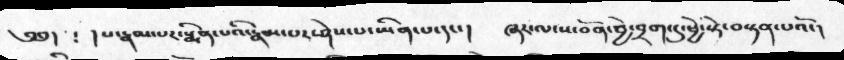༄༅།  ༴ །པ་རྣམ་པར་སྨིན་པའི་རྣམ་པར་ཤེས་པ་ཡིན་པ་དང་།  ཞར་ལ་ས་བོན་བྱེ་བྲག་དུ་ཕྱེ་སྟེ་བསྟན་པའོ་།
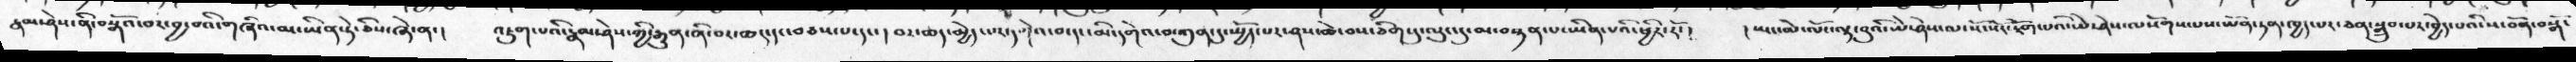རྣམ་ཤེས་ནི་བསྒོའ་བར་བྱ་བའི་གཞིའ་མ་ཡིན་ཏེ་ཅིས་ཞེ་ན་།  འཇུག་པའི་རྣམ་ཤེས་ཀྱི་རྒྱུན་ཞི་བར་ཆད་དང་བཅས་པ་དང་།  བར་ཆད་མྱེད་པར་དགེའ་བ་དང་མི་དགེའ་བ་ཀུན་དུ་སྤྱོད་པར་ཤས་ཆེ་བས་ཅིག་དུ་ལུང་མ་བསྟན་པ་ཡིན་པའི་ཕྱིར་རོ་།   ། ཡང་མེ་ལོང་ལྟ་བུའི་ཡེ་ཤེས་ལ་སོ་སོར་རྟོག་པའི་ཡེ་ཤེས་ལསོགས་པས་ཡོན་ཏན་ཁྱད་པར་ཅན་སྒྲུབ་པར་བྱེད་པའི་ས་བོན་བསྒོ་
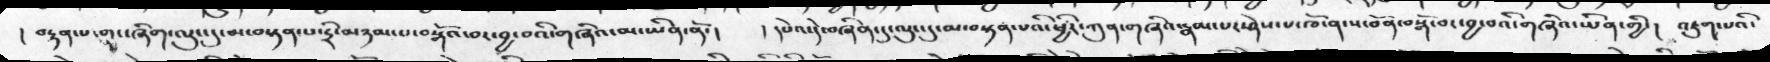། བརྟན་པ་གང་ཞིག་ལུང་དུ་མ་བསྟན་པ་དྲི་མཉམ་པ་བསྒོའ་བར་བྱ་བའི་གཞིའ་མ་ཡིན་ནོ་།   །དཔེའ་དེ་བཞིན་དུ་ལུང་དུ་མ་བསྟན་པའི་ཕྱིར་ཀུན་གཞིའ་རྣམ་པར་ཤེས་པ་ཁོ་ན་ས་བོན་བསྒོ་བར་བྱ་བའི་གཞིའ་ཡིན་གྱི་།  འཇུག་པའི་
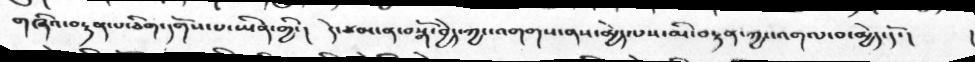གཞིའ་བརྟན་པ་ཅིག་དགོས་པ་ཡིན་གྱི་།  དེ་ཙམ་ན་བསྒོ་བྱེད་ཀྱང་འགགས་ནས་མྱེད་པས་མི་བརྟན་ཀྱང་འགལ་བ་མྱེད་དོ་།
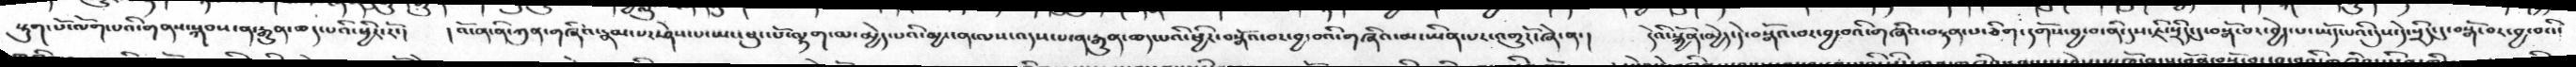སྡུག་པོ་ལསོགས་པའི་གནས་སྐབས་ན་རྒྱུན་ཆད་པའི་ཕྱིར་རོ་།  །འོ་ན་ཀུན་གཞིའ་རྣམ་པར་ཤེས་པ་ཡང་ཕུང་པོ་ལྷག་མ་མྱེད་པའི་མྱ་ངན་ལས་འདས་པ་ན་རྒྱུན་ཆད་པའི་ཕྱིར་བསྒོའ་བར་བྱ་བའི་གཞིའ་མ་ཡིན་པར་འགྱུརོ་ཞེ་ན་།  དེའི་སྐྱོན་མྱེད་དེ་བསྒོའ་བར་བྱ་བའི་གཞིའ་བསྟན་པ་ཅིག་དགོས་བྱ་བ་ནི་དུས་ཇི་སྲིད་དུ་བསྒོ་བར་བྱེད་པ་ཡོད་པའི་དུས་དེ་སྲིད་དུ་བསྒོ་བར་བྱ་བའི་
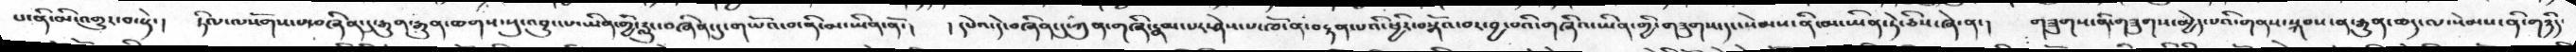པ་ནི་མི་འགྱུར་བ་སྟེ་།  ཏིལ་ལསོགས་པ་བཞིན་དུ་རྒྱུན་རྒྱུན་ཆགས་སུ་འབྱུང་པ་ཡིན་གྱི་རླུང་བཞིན་དུ་གཡོའ་བ་ནི་མ་ཡིན་ནོ་།   །དཔེའ་དེ་བཞིན་དུ་ཀུན་གཞི་རྣམ་པར་ཤེས་པ་ཁོ་ན་བརྟན་པའི་ཕྱིར་བསྒོའ་བར་བྱ་བའི་གཞིའ་ཡིན་གྱི་གཟུགས་དང་སེམས་ནི་མ་ཡིན་ཏེ་ཅིས་ཞེ་ན་།   གཟུགས་ནི་གཟུགས་མྱེད་པའི་གནས་སྐབས་ན་རྒྱུན་ཆད་ལ་སེམས་ནི་གཉིད་
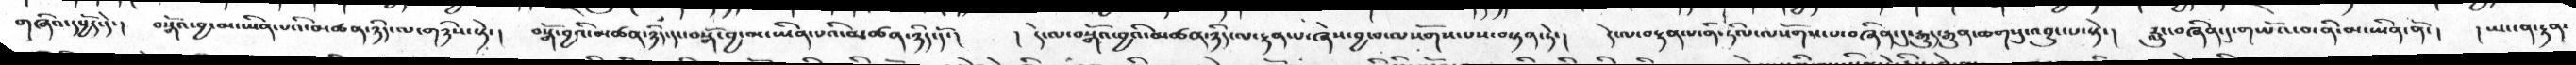གཞིའ་དཔྱོད་དེ་།  བསྒོའ་བྱ་མ་ཡིན་པའི་མཚན་ཉིད་ལ་གཉིས་སྟེ་།  བསྒོ་བྱའི་མཚན་ཉིད་དུ་བསྒོ་བྱ་མ་ཡིན་པའི་མཚན་ཉིད་དོ་།  ། དེ་ལ་བསྒོའ་བྱའི་མཚན་ཉིད་ལ་རྟན་པ་ཞེས་བྱ་བ་ལསོགས་པས་བསྟན་ཏེ་།  དེ་ལ་བསྟན་པ་ནི་ཏིལ་ལསོགས་པ་བཞིན་དུ་རྒྱུད་རྒྱུན་ཆགསུ་འབྱུང་པ་སྟེ་།  རླུང་བཞིན་དུ་གཡོའ་བ་ནི་མ་ཡིན་ནོ་།   །ཡང་ན་རྟན་
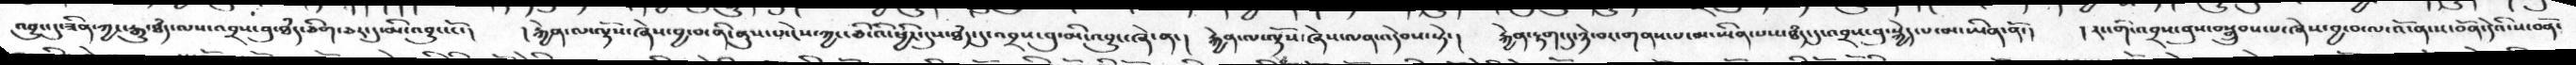འབྱུང་དུ་ཟིན་ཀྱང་རྒྱུ་ཐཾད་ལས་འབྲས་བུ་ཐཾད་ཅིག་ཅར་དུ་མི་འབྱུང་ངོ་།   །རྐྱེན་ལ་ལྟོས་ཞེས་བྱ་བ་ནི་ནུས་པ་ངེས་ཀྱང་ཅི་འི་ཕྱིར་དུས་ཐཾད་དུ་འབྲས་བུ་མི་འབྱུང་ཞེན་ན་།  རྐྱེན་ལ་ལྟོས་ཞེས་ལན་འདེབས་སྟེ་།   རྐྱེན་རྟག་དུ་ཉེ་བར་གནས་པ་མ་ཡིན་པས་ཐཾད་དུ་འབྲས་བུ་སྐྱེད་པ་མ་ཡིན་ནོ་།    ། རང་གི་འབྲས་བུས་བསྒྲུབས་པ་ཞེས་བྱ་བ་ལ་འོ་ན་ས་བོན་དེའི་ས་བོན་
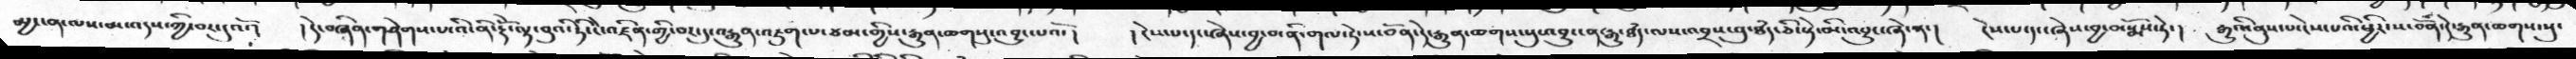མྱ་ངན་ལས་མ་འདས་ཀྱི་བར་དུའོ་།  །དེ་བཞིན་གཤེགས་པ་འི་ནི་རྡོེ་ལྟ་བུའི་ཏི་ངེ་འཛིན་གྱི་བར་དུ་བརྒྱུན་འཇུག་པ་ཙམ་གྱིས་རྒྱུན་ཆགསུ་འབྱུང་པའོ་།   །ངེས་པ་དང་ཞེས་བྱ་བ་ནི་གལ་་ཏེ་ས་བོན་དེ་རྒྱུན་ཆགསུ་འབྱུང་ན་རྒྱུ་ཐཾད་ལས་འབྲས་བུ་ཐཾད་ཅི་སྟེ་མི་འབྱུང་ཞེ་ན་།  ངེས་པ་དང་ཞེས་བྱ་བ་སྨོས་ཏེ་།   རྒྱུའི་ནུས་པ་ངེས་པའི་ཕྱིར་ས་བོན་དེ་རྒྱུན་ཆགས་སུ་
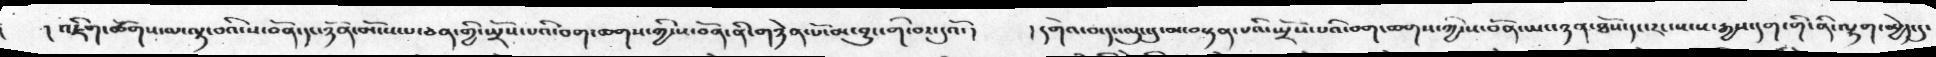།   ། འཇིག་ཚོགས་ལ་ལྟ་བའི་ས་བོན་དང་ཉོན་མོངས་པ་ཅན་གྱི་སྤྲོས་པའི་བག་ཆགས་ཀྱི་ས་བོན་ནི་གཉེན་པོ་མ་བྱུང་གི་བར་དུའོ་།    ། དགེའ་བ་དང་ལུང་དུ་མ་བསྟན་པའི་སྤྲོས་པའི་བག་ཆགས་ཀྱི་ས་བོན་ཡང་ཉན་ཐོས་དང་རང་སངས་རྒྱས་དག་གི་ནི་ལྷག་མྱེད་དུ་
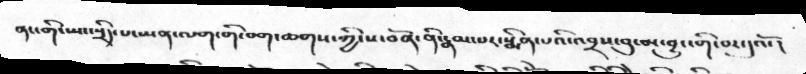ནང་གི་ཡང་སྲིད་པ་ཡན་ལག་གི་བག་ཆགས་ཀྱི་ས་བོན་ནི་རྣམ་པར་སྨིན་པའི་འབྲས་བུ་མ་བྱུང་གི་བར་དུའོ་།
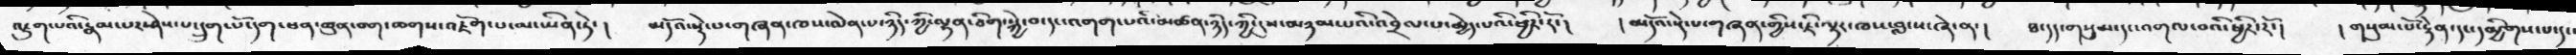འཇུག་པའི་རྣམ་པར་ཤེས་པ་དྲུག་པོ་དག་ཕན་ཚུན་བག་ཆགས་འཇོག་པ་མ་ཡིན་ཏེ་།   མདོའ་སྡེ་པ་གཞན་ཁས་ལེན་པ་ཉིད་ཀྱི་ལྷན་ཅིག་སྐྱེ་བ་དང་འགག་པའི་མཚན་ཉིད་ཀྱི་དུས་མཉམ་པའི་འབྲེལ་པ་མྱེད་པའི་ཕྱིར་རོ་།   །མདོའ་སྡེ་པ་གཞན་གྱིས་ཇི་ལྟར་ཁས་བླངས་ཞེ་ན་།   ཐ་དད་གསུམ་དང་འགལ་བའི་ཕྱིར་རོ་།   ། གསུམ་པོ་རྟེན་དང་དམྱིགས་པ་དང་
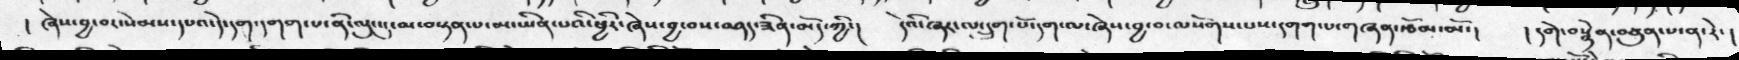།  ཞེས་བྱ་བར་སེམས་དཔའ་དེ་དག་དགག་པ་ནི་ལུང་དུ་མ་བསྟན་པ་མ་ཡིན་པའི་ཕྱིར་ཞེས་བྱ་བས་བཤད་ཟིན་མོད་ཀྱི་།  དེའི་ཞར་ལ་དྲུག་པོ་དག་ལ་ཞེས་བྱ་བ་ལསོགས་པས་དགག་པ་གཞན་རྩོམ་མོ་།   །དགེ་བསྙེན་བཙུན་པ་ན་རེ་།
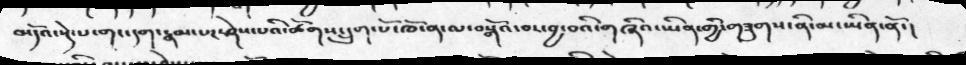མདོའ་སྟེ་པ་གང་དག་རྣམ་པར་ཤེས་པའི་ཚོགས་དྲུག་པོ་ཁོ་ན་ལ་བསྒོའ་བར་བྱ་བའི་གཞིའ་ཡིན་གྱི་གཟུགས་ནི་མ་ཡིན་ནོ་།
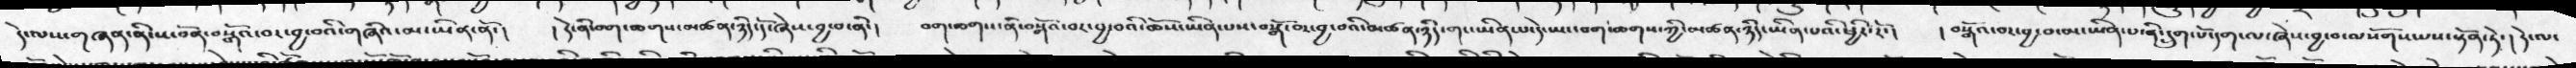དེ་ལས་གཞན་ནི་ས་བོན་བསྒོའ་བར་བྱ་བའི་གཞིའ་མ་ཡིན་ནོ་།  །དེ་ནི་བག་ཆགས་མཚན་ཉིད་དོ་ཞེས་བྱ་བ་ནི་།  བག་ཆགས་ནི་བསྒོའ་བར་བྱ་བའི་ཆོས་ཡིན་པས་བསྒོ་བར་བྱ་བའི་མཚན་ཉིད་གང་ཡིན་པ་དེ་ཡང་བག་ཆགས་ཀྱི་མཚན་ཉིད་ཡིན་པའི་ཕྱིར་རོ་།  །བསྒོའ་བར་བྱ་བ་མ་ཡིན་པ་ནི་དྲུག་པོ་དག་ལ་ཞེས་བྱ་བ་ལསོགས་པས་སྟོན་ཏེ་། དེ་ལ་
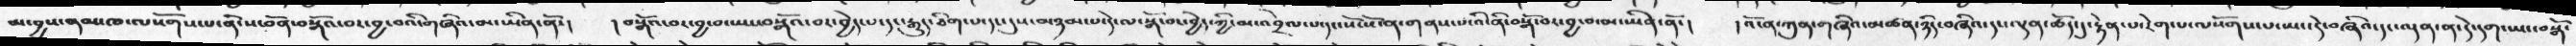མ་བྱས་ནམ་ཁ་ལསོགས་པ་ནི་ས་བོན་བསྒོའ་བར་བྱ་བའི་གཞིའ་མ་ཡིན་ནོ་།   །བསྒོའ་བར་བྱ་བ་ཡང་བསྒོའ་བར་བྱེད་པ་དང་རྒྱུད་ཅིག་པ་དང་དུས་མཉམ་པ་དེ་ལ་སྒོ་བར་བྱེད་ཀྱི་མ་འབྲེལ་པ་དང་སོ་སོ་ན་གནས་པ་འི་ནི་བསྒོ་བར་བྱ་བ་མ་ཡིན་ནོ་།  །འོ་ན་ཀུན་གཞིའ་མཚན་ཉིད་བཞིའ་དང་ལྡན་ཆོད་དུ་རྟེན་པ་རེག་པ་ལསོགས་པ་ཡང་དེ་བཞིའ་དང་ལྡན་ན་དེ་དག་ཡང་བསྒོ་
